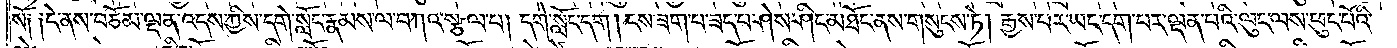སོ༑ ༑དེ་ནས་བཅོམ་ལྡན་འདས་ཀྱིས་དགེ་སློང་རྣམས་ལ་བཀའ་སྩལ་པ། དགེ་སློང་དག །ངས་ཟག་པ་ཟད་པ་ཤེས་ཤིང་མཐོང་ནས་གསུངས་ཏེ། རྒྱས་པར་ཡང་དག་པར་ལྡན་པའི་ལུང་ལས་ཕུང་པོའི་
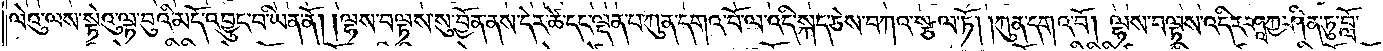ལེའུ་ལས་སྟེའུ་ལྟ་བུའི་མདོ་འབྱུང་བ་ཡིན་ནོ། །ལྷས་བལྟས་སུ་བྱོན་ནས་དེར་ཚེ་དང་ལྡན་པ་ཀུན་དགའ་བོ་ལ་འདི་སྐད་ཅེས་བཀའ་སྩལ་ཏོ། །ཀུན་དགའ་བོ། ལྷས་བལྟས་འདིར་ཤཱཀྱ་ཤིན་ཏུ་བློ་
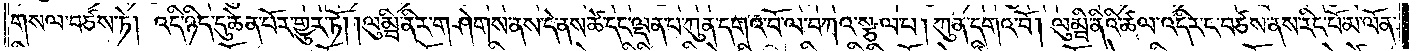གསལ་བཙས་ཏེ། འདི་ཉིད་དུ་ཆེན་པོར་གྱུར་ཏོ། །ལུམྦི་ནིར་གཤེགས་ནས་དེ་ནས་ཚེ་དང་ལྡན་པ་ཀུན་དགའ་བོ་ལ་བཀའ་སྩལ་པ། ཀུན་དགའ་བོ། ལུམྦི་ནིའི་ཚལ་འདིར་ང་བཙས་ནས་རིང་པོ་མ་ལོན་
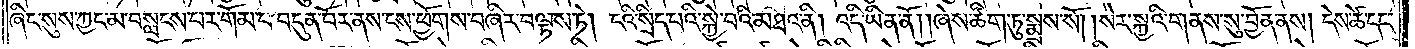ཞིང་སུས་ཀྱང་མ་བསླངས་པར་གོམ་པ་བདུན་བོར་ནས་ངས་ཕྱོགས་བཞིར་བལྟས་ཏེ། ངའི་སྲིད་པའི་སྐྱེ་བའི་མཐའ་ནི། འདི་ཡིན་ནོ། །ཞེས་ཚིག་ཏུ་སྨྲས་སོ། །སེར་སྐྱའི་གནས་སུ་བྱོན་ནས། དེས་ཚེ་དང་
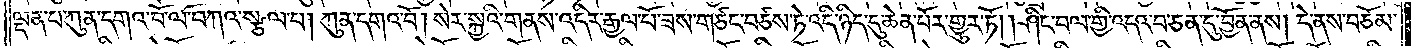ལྡན་པ་ཀུན་དགའ་བོ་ལ་བཀའ་སྩལ་པ། ཀུན་དགའ་བོ། སེར་སྐྱའི་གནས་འདིར་རྒྱལ་པོ་ཟས་གཙང་བཙས་ཏེ་འདི་ཉིད་དུ་ཆེན་པོར་གྱུར་ཏོ། །ཤིང་བལ་གྱི་འདའ་བ་ཅན་དུ་བྱོན་ནས། དེ་ནས་བཅོམ་
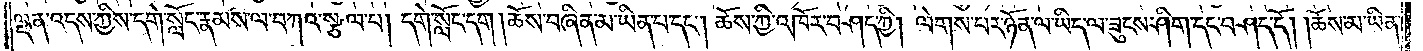ལྡན་འདས་ཀྱིས་དགེ་སློང་རྣམས་ལ་བཀའ་སྩལ་པ། དགེ་སློང་དག། ཆོས་བཞིན་མ་ཡིན་པ་དང༌། ཆོས་ཀྱི་འཁོར་བཤད་ཀྱི། ལེགས་པར་ཉོན་ལ་ཡིད་ལ་ཟུངས་ཤིག་དང་བཤད་དོ། །ཆོས་མ་ཡིན་
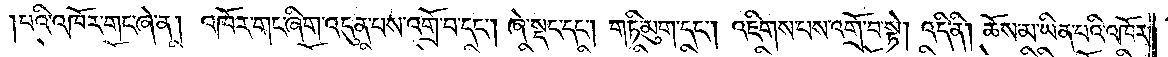།པའི་འཁོར་གང་ཞེ་ན། འཁོར་གང་ཞིག་འདུན་པས་འགྲོ་བ་དང༌། ཞེ་སྡང་དང༌། གཏི་མུག་དང༌། འཇིགས་པས་འགྲོ་བ་སྟེ། འདི་ནི། ཆོས་མ་ཡིན་པའི་འཁོར་
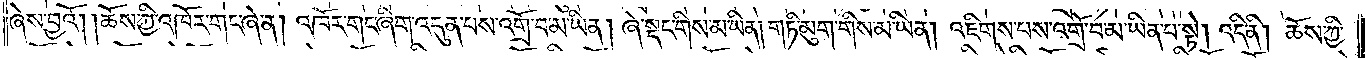ཞེས་བྱའོ། །ཆོས་ཀྱི་འཁོར་གང་ཞེ་ན། འཁོར་གང་ཞིག་འདུན་པས་འགྲོ་བ་མ་ཡིན། ཞེ་སྡང་གིས་མ་ཡིན། གཏི་མུག་གིས་མ་ཡིན། འཇིགས་པས་འགྲོ་བ་མ་ཡིན་པ་སྟེ། འདི་ནི། ཆོས་ཀྱི་
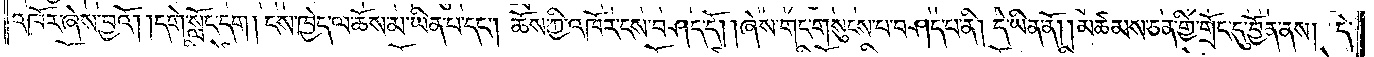འཁོར་ཞེས་བྱའོ། །དགེ་སློང་དག། ངས་ཁྱེད་ལ་ཆོས་མ་ཡིན་པ་དང༌། ཆོས་ཀྱི་འཁོར་ངས་བཤད་དོ། །ཞེས་གང་གསུངས་པ་བཤད་པ་ནི། དེ་ཡིན་ནོ། །མཚམས་ཅན་གྱི་གྲོང་དུ་བྱོན་ནས། དེ་
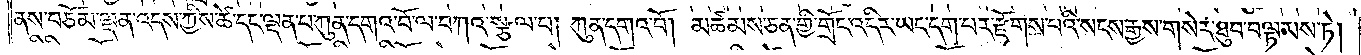ནས་བཅོམ་ལྡན་འདས་ཀྱིས་ཚེ་དང་ལྡན་པ་ཀུན་དགའ་བོ་ལ་བཀའ་སྩལ་པ། ཀུན་དགའ་བོ། མཚམས་ཅན་གྱི་གྲོང་འདིར་ཡང་དག་པར་རྫོགས་པའི་སངས་རྒྱས་གསེར་ཐུབ་བལྟམས་ཏེ།
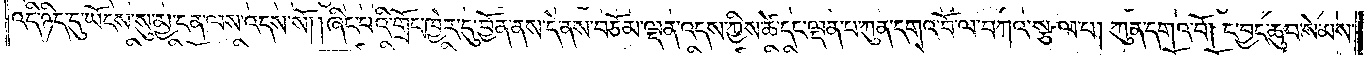འདི་ཉིད་དུ་ཡོངས་སུ་མྱ་ངན་ལས་འདས་སོ། །ཞིང་པའི་གྲོང་ཁྱེར་དུ་བྱོན་ནས་དེ་ནས་བཅོམ་ལྡན་འདས་ཀྱིས་ཚེ་དང་ལྡན་པ་ཀུན་དགའ་བོ་ལ་བཀའ་སྩལ་པ། ཀུན་དགའ་བོ། ང་བྱང་ཆུབ་སེམས་
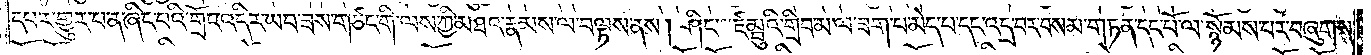དཔར་གྱུར་པ་ན་ཞིང་པའི་གྲོང་འདིར་ཡབ་ཟས་གཙང་གི་ལས་ཀྱི་མཐའ་རྣམས་ལ་བལྟས་ནས། ཤིང་ཛམྦུའི་གྲིབ་མ་ལ་ཟག་པ་མེད་པ་དང་འདྲ་བར་བསམ་གཏན་དང་པོ་ལ་སྙོམས་པར་བཞུགས་
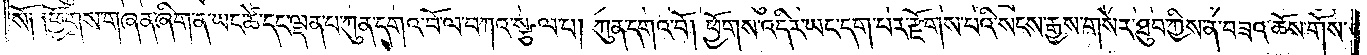སོ༑ ༑ཕྱོགས་གཞན་ཞིག་ན་ཡང་ཚེ་དང་ལྡན་པ་ཀུན་དགའ་བོ་ལ་བཀའ་སྩལ་པ། ཀུན་དགའ་བོ། ཕྱོགས་འདིར་ཡང་དག་པར་རྫོགས་པའི་སངས་རྒྱས་གསེར་ཐུབ་ཀྱིས་ན་བཟའ་ཆོས་གོས་
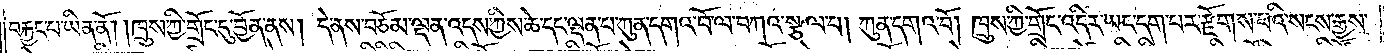བརྐྱང་པ་ཡིན་ནོ། །ཁྲུས་ཀྱི་གྲོང་དུ་བྱོན་ནས། དེ་ནས་བཅོམ་ལྡན་འདས་ཀྱིས་ཚེ་དང་ལྡན་པ་ཀུན་དགའ་བོ་ལ་བཀའ་སྩལ་པ། ཀུན་དགའ་བོ། ཁྲུས་ཀྱི་གྲོང་འདིར་ཡང་དག་པར་རྫོགས་པའི་སངས་རྒྱས་
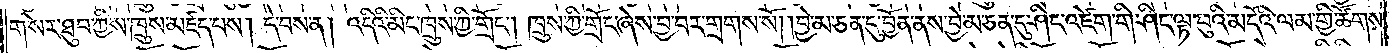གསེར་ཐུབ་ཀྱིས་ཁྲུས་མཛད་པས། དེ་བས་ན། འདིའི་མིང་ཁྲུས་ཀྱི་གྲོང༌། ཁྲུས་ཀྱི་གྲོང་ཞེས་བྱ་བར་གྲགས་སོ། །བྱེ་མ་ཅན་དུ་བྱོན་ནས་བྱེ་མ་ཅན་དུ་ཤིང་འཛེག་གི་ཤིང་ལྟ་བུའི་མདོའི་ལམ་གྱི་ཚོགས་
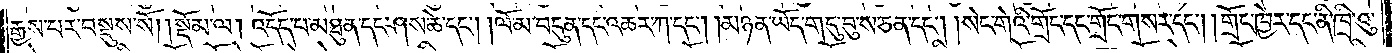རྒྱས་པར་བསྡུས་སོ།    །སྡོམ་ལ། འདོད་པ་མཐུན་དང་ཤས་ཆེ་དང༌། །ལོ་མ་བདུན་དང་འཆར་ཀ་དང༌། །མཉན་ཡོད་གདུ་བུ་ས་ཅན་དང༌། །སེང་གེའི་གྲོང་དང་གྲོང་གསར་དང༌། །གྲོང་ཁྱེར་དང་ནི་ཁྲི་འུ་
